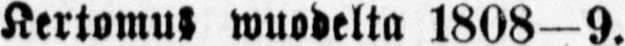Kertomus wuodelta 1808—9.
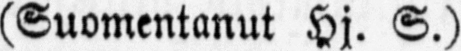(Suomentanut Hj. S.)
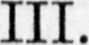III.
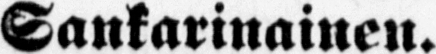Sankarinainen.
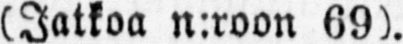(Jatkoa n:roon 69).
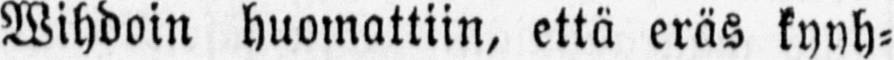Wihdoin huomattiin, että eräs kyyh-
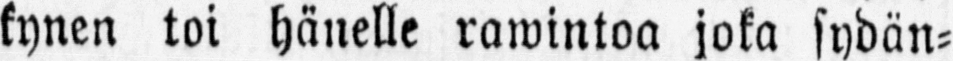kynen toi hänelle rawintoa joka sydän-
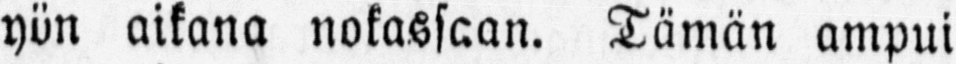yön aikana nokassaan. Tämän ampui
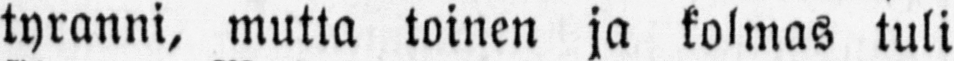tyranni, mutta toinen ja kolmas tuli
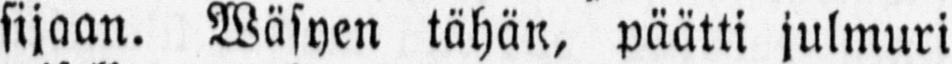sijaan. Wäsyen tähän, päätti julmuri
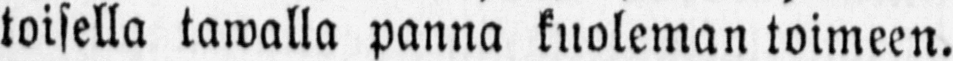toisella tawalla panna kuoleman toimeen.
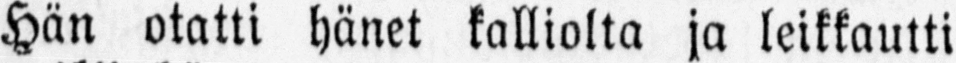Hän otatti hänet kalliolta ja leikkautti
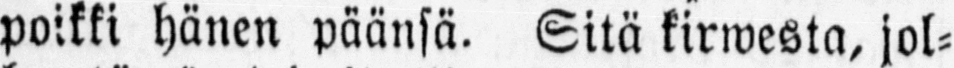poikki hänen päänsä. Sitä kirwesta, jol-
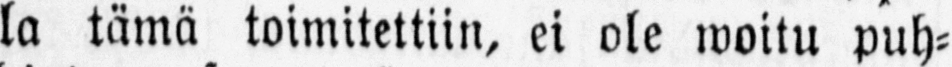la tämä toimitettiin, ei ole woitu puh-
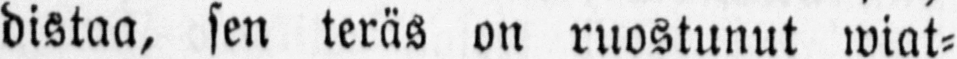distaa, sen teräs on ruostunut wiat-
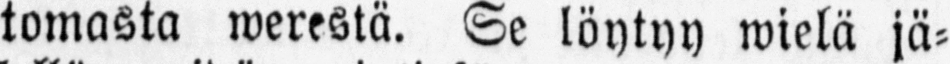tomasta werestä. Se löytyy wielä jä-
